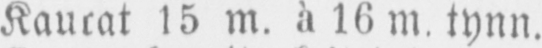Kaurat 15 m. ä 16 m. tynn.
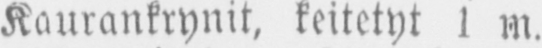Kaurankrynit, keitetyt 1 m.
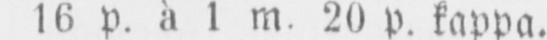16 p. ä 1 m. 20 p. kappa.
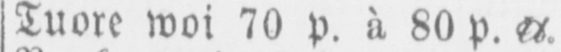Tuore woi 70 p. ä. 80 p. U+2114,
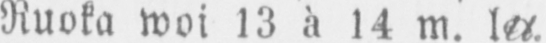Ruoka woi 13 ä 14 m. l+U+2114,
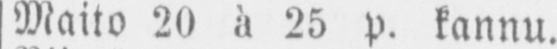Maito 20 ä 25 p. kannu.
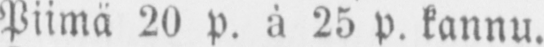Piimä 20 p. ä 25 p. kannu.
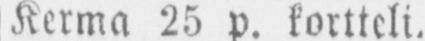Kerma 25 p. kortteli.
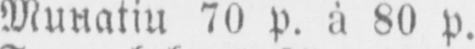Muutiu 70 p. ä 80 p.
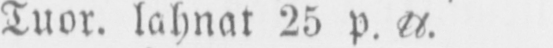Tuor. lahnat 25 p. U+2114,
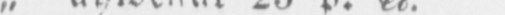„ ahwenat 25. p. U+2114,
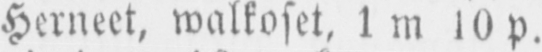Herneet, walkoset, l m 10 .
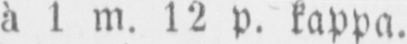ä l m. 12 p. kappa.
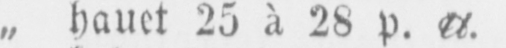„ hauet 25 ä 28 p. U+2114,
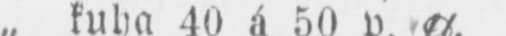„ kuha 40 ä 50 p. U+2114,
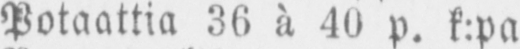Potaattia 36 ä. 40 p. k:pa
